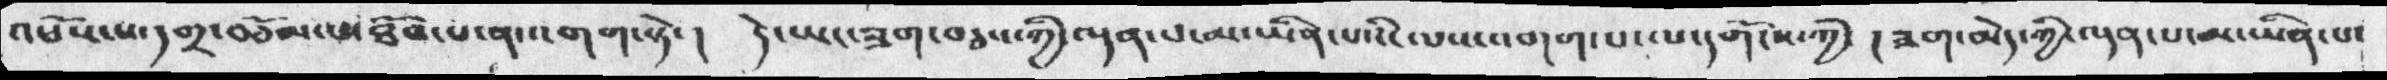འཕོས་པ་དགྲ་བཅོམ་པ་ཐོབ་པ་ན་འགག་སྟེ་།   དེ་ཡང་ཟག་བཅས་ཀྱི་ལྡན་པ་མ་ཡིན་པའི་ལས་འགག་པ་ལ་དགོངས་ཀྱི་  །ཟག་མེད་ཀྱི་ལྡན་པ་མ་ཡིན་པ་
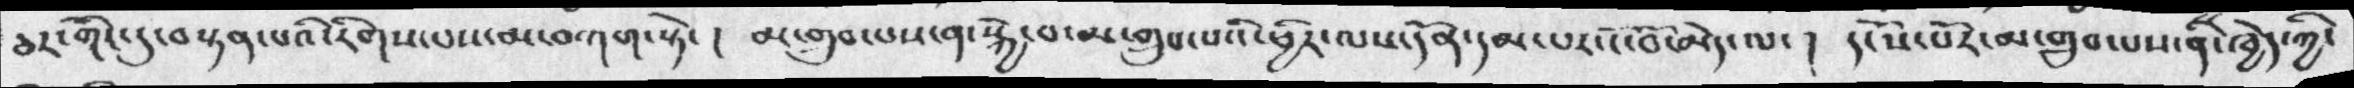ཅར་གོང་དུ་བསྟན་པའི་རིགས་པས་མ་བཀག་སྟེ་ ། མ་གྲུབ་པས་ན་སྐྱེ་བ་མ་གྲུབ་པའི་ཕྱིར་ལས་དོན་དམ་པར་ངོ་བོ་མེད་ལ་ །  དངོས་པོར་མ་གྲུབ་པས་ནི་ཁྱེད་ཀྱི་
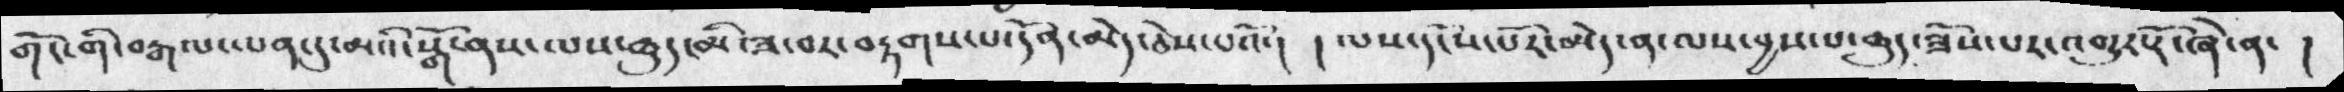གོང་གི་བརྒལ་ལན་དུ་མའི་སྒོ་ནས་ལས་ཆུད་མི་ཟ་བར་བརྟགས་པ་དོན་མེད་ཅེས་པའོ་།  ། ལས་དངོས་པོར་མེད་ན་ལས་བྱས་པ་ཆུད་ཟོས་པར་འགྱུར་རོ་ཞེ་ན་ །
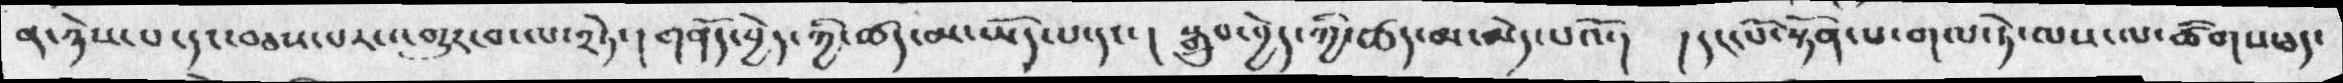ན་ཉེས་པ་དང་བཅས་པར་འགྱུར་བ་ལ་༢ཏེ་ །གནོད་བྱེད་ཀྱི་ཚད་མ་ཡོད་པ་དང་  ། སྒྲུབ་བྱེད་ཀྱི་ཚད་མ་མེད་པའོ་།   ། དང་པོ་སྟོན་པ་གལ་ཏེ་ལས་ལ་ཚིགས་ཅད་
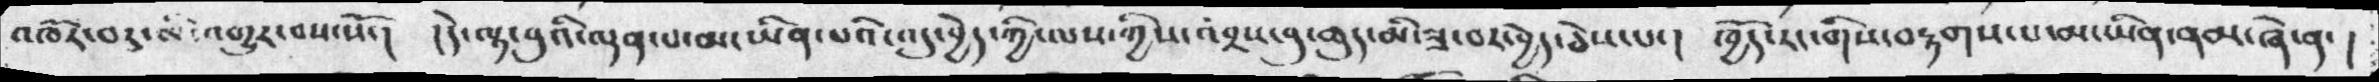འཁོར་བར་མི་འགྱུར་བས་སོ་།  །དེ་ལྟ་བུའི་ལྡན་པ་མ་ཡིན་པའི་འདུ་བྱེད་ཀྱི་ལས་ཀྱིས་འབྲས་བུ་ཆུད་མི་ཟ་བར་བྱེད་ཅེས་པ་ ། ཁྱོད་རང་གིས་བརྟགས་པ་མ་ཡིན་ནམ་ཞེ་ན་ །
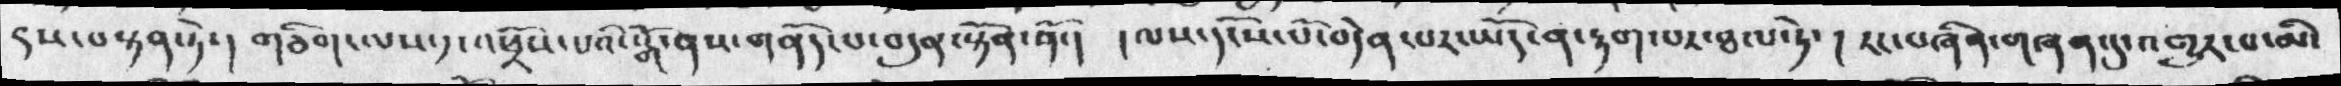༩ས་བསྟན་ཏེ་ ། གཅིག་ལས་༡་འཕྲོས་པའི་སྒོ་ནས་གནོད་པ་བདུན་སྟོན་ནོ་།  ། ལས་དངོས་པོ་བདེན་པར་ཡོད་ན་རྟག་པར་ཐལ་ཏེ་  ། རང་བཞིན་གཞན་དུ་འགྱུར་པ་མི་
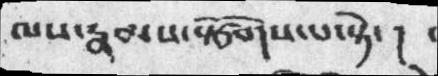ལས་རྣམས་སྩོགས་པ་སྟེ་  །
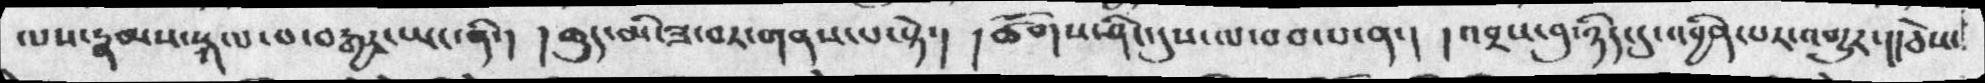ལས་རྣམས་སྐལ་བ་བརྒྱར་ཡང་ནི་།  ། ཆུད་མི་ཟ་བར་གནས་པ་སྟེ་།   ། ཚོགས་ཤིང་དུས་ལ་བབ་པ་ན་།  ། འབྲས་བུ་ཉིད་དུ་འབྱིན་པར་འགྱུར་།། ཅེས་
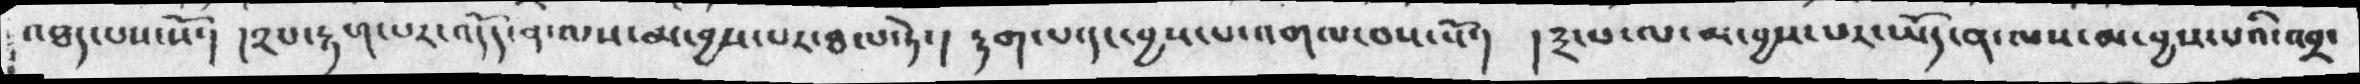འཐད་པས་སོ་།  ། ༢པ་རྟག་པར་འདོད་ན་ལས་མ་བྱས་པར་ཐལ་ཏེ་ ། རྟག་པ་དང་བྱས་པ་འགལ་བས་སོ་།  །༣་པ་ལ་མ་བྱས་པར་ཡོད་ན་ལས་མ་བྱས་པའི་འབྲ་
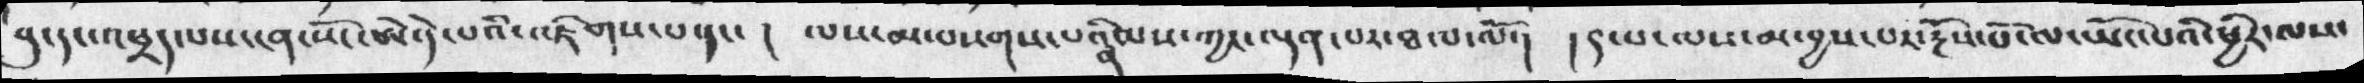བུ་དང་འཕྲད་པས་ངན་སོང་ཨེ་དེ་པའི་འཇིགས་པ་དང་།  ལས་མ་བསགས་པའི་རྣམས་ཀྱང་ལྡན་པར་ཐལ་ལོ་།  ། ༩་པ་ལས་མ་བྱས་པར་རྔོས་པོ་ལ་སྤོང་པའི་ཕྱིར་ལས་
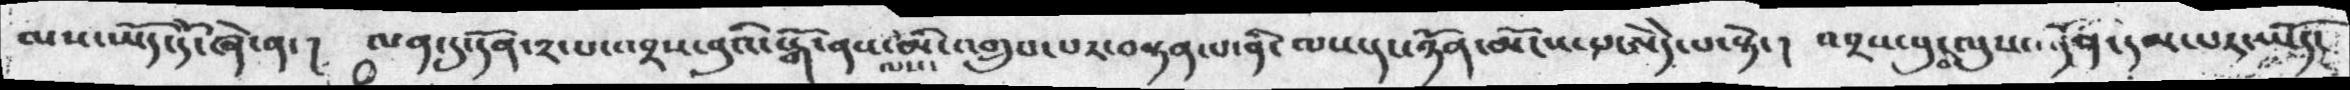ལས་ཡོད་དོ་ཞེ་ན་།  ལན་དུ་དོན་༢་པ་འབྲས་བུའི་སྒོ་ནས་ལས་མི་འགྲུབ་པར་བསྟན་པ་ནི་ལས་དང་ཉོན་མོངས་པ་ཨེདེ་པ་སྟེ་།  འབྲས་བུ་ལུས་དོན་དམ་པར་ཡོད་
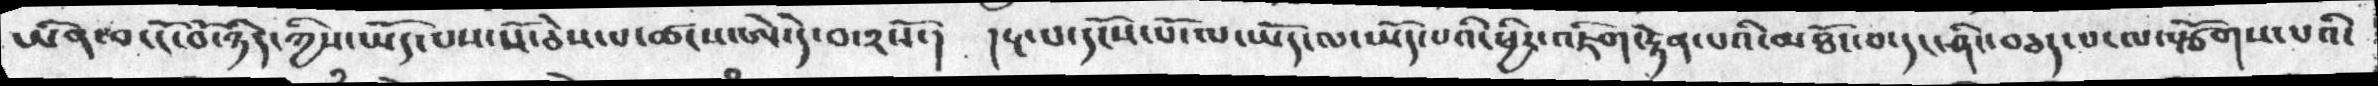ཡིན་བ་ངོ་བོ་ཉིད་ཀྱིས་ཡོད་པས་སོ་ཅེས་པ་ཚངས་ཨེ་དེ་བ༢སོ་།    །༥་པ་དངོས་པོ་ལ་ཡོད་ལ་ཡོད་པའི་ཕྱིར་འཇིག་རྟེན་པའི་མཐོང་བ་དང་ཤིང་བཅད་པ་ལསྩོགས་པའི་
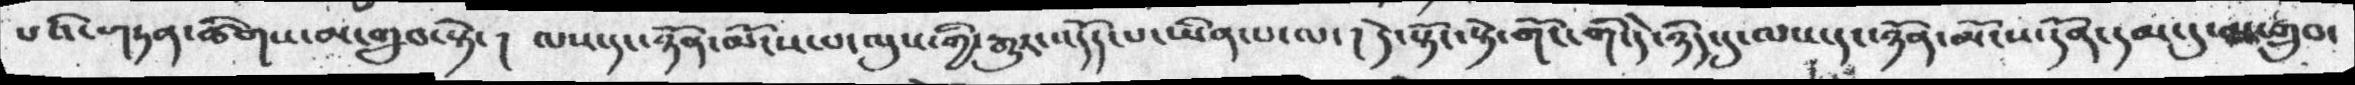པའི་གཏན་ཚིགས་མ་གྲུབ་སྟེ་ །  ལས་དང་ཉོན་མོངས་པ་ལུས་གྱི་རྒྱུར་འདོད་པ་ཡིན་པ་ལ་ ། དེ་སྟོང་སྟེ་གོང་གི་དེ་ཉིད་དུ་ལས་དང་ཉོན་མོངས་དོན་དམ་དུ་མ་གྲུབ་
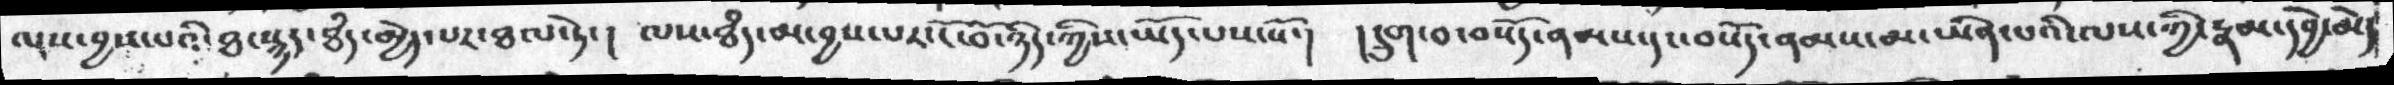འདས་བྱས་པའི་ཐ་སྙད་ཐདཾ་མྱེད་པར་ཐལ་ཏེ་ །  ལས་ཐདཾ་མ་བྱས་པར་ངོ་བོ་ཉིད་ཀྱིས་ཡོད་པས་སོ་།    །དྲུག་བ་བསོད་ནམས་དང་བསོད་ནམས་མ་ཡིན་པའི་ལས་གྱི་རྣམ་དབྱེ་མེད་
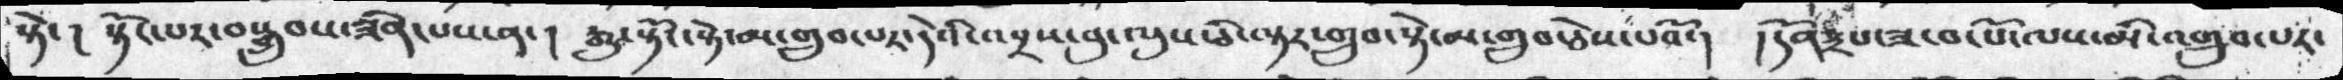སྟེ་ ། སྟོང་པར་བསྒྲུབས་ཟིན་པས་ན་ །རྒྱུ་སྟོང་སྟེ་མ་གྲུབ་པར་དེའི་འབྲས་བུ་ལུས་ཅི་ལྟར་གྲུབ་སྟེ་མ་གྲུབ་ཅེསས་པའོ་།   །དོན་༣པ་ཟ་བ་པོ་ལས་མི་འགྲུབ་པར་
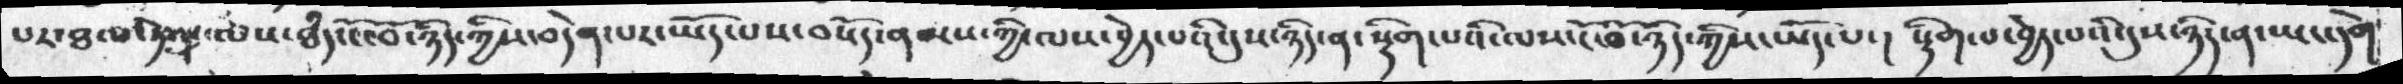པར་ཐལ་ཏེ་ལས་ཐཾད་ངོ་བོ་ཉིད་ཀྱིས་བདེན་པར་ཡོད་པས་བསོད་ནམས་ཀྱི་ལས་བྱེད་པའི་དུས་ཉིད་ན་སྡིག་པའི་ལས་ངོ་བོ་ཉིད་ཀྱིས་ཡོད་པ་།  སྡིག་པ་བྱེད་པའི་དུས་ཉིད་ན་ཡང་དགེ་
